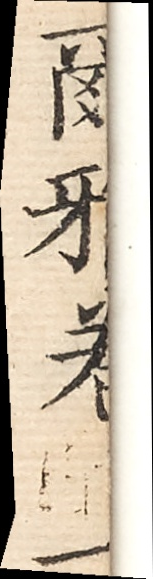爾雅卷一
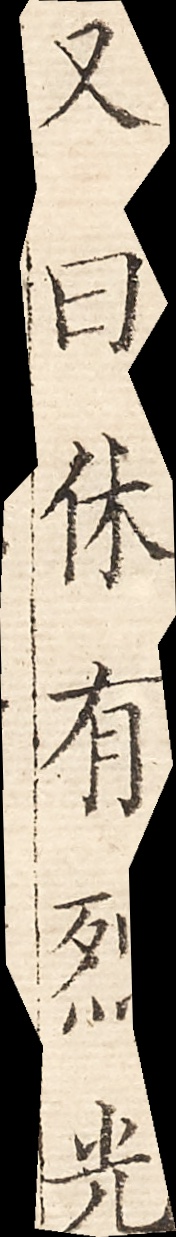又曰休有烈光
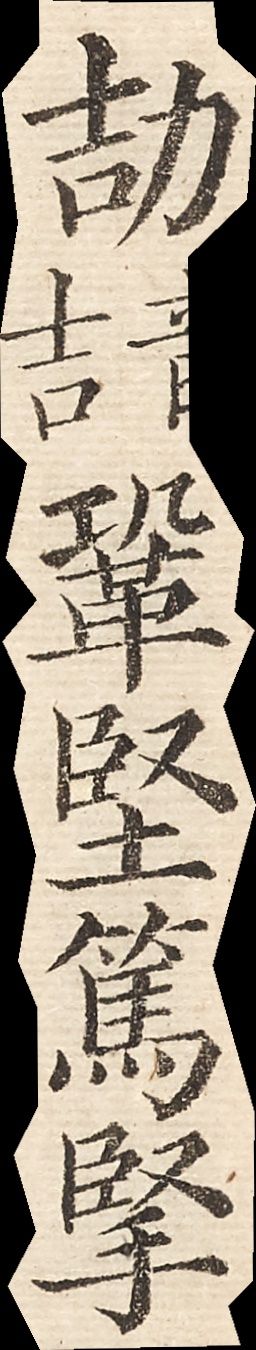劼鞏堅篤掔
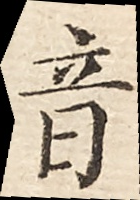音
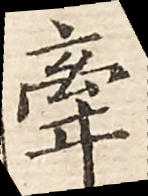牽
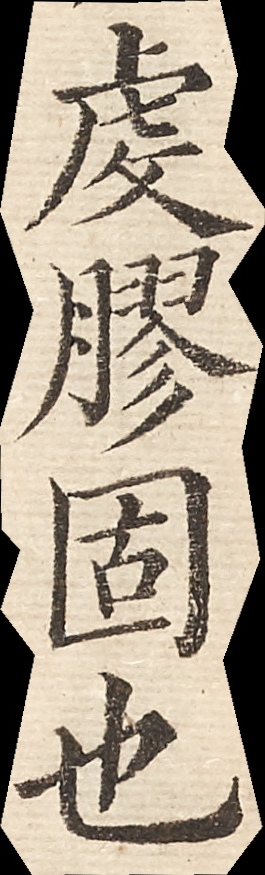虔膠固也
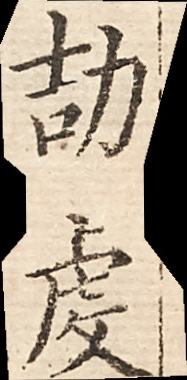劼虔
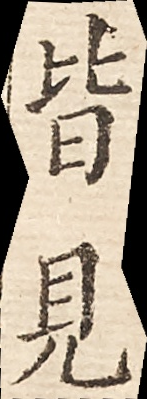皆見
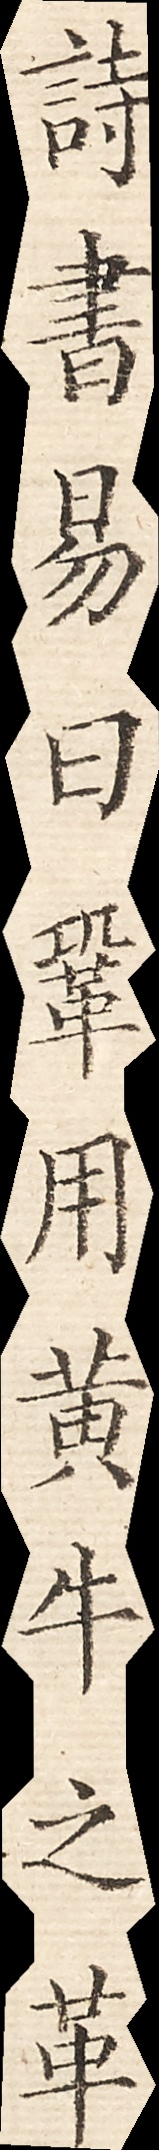詩書易曰鞏用黃牛之革
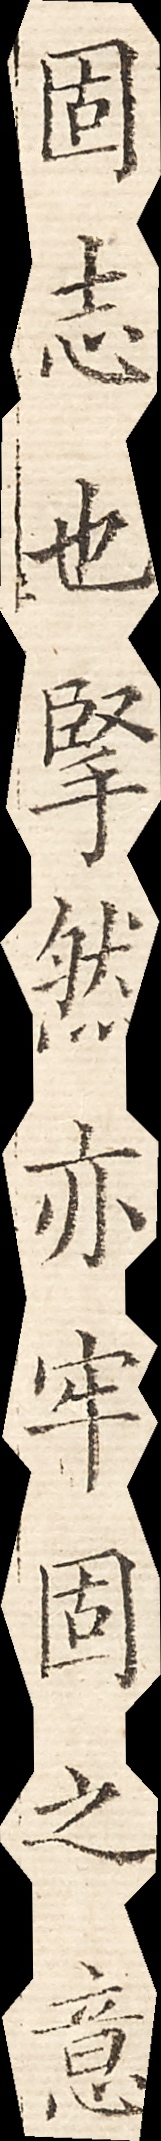固志也掔然亦牢固之意
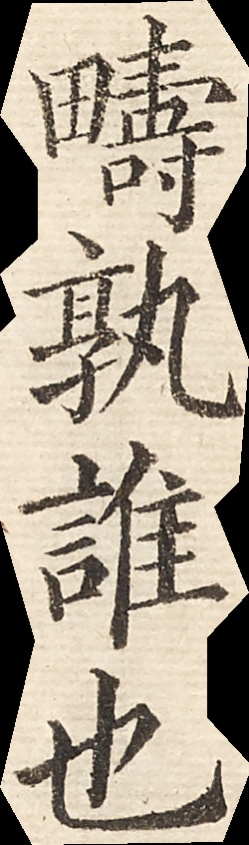疇孰誰也
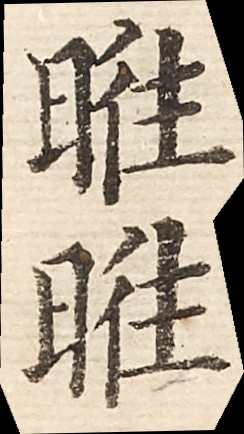甠甠
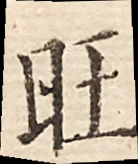旺
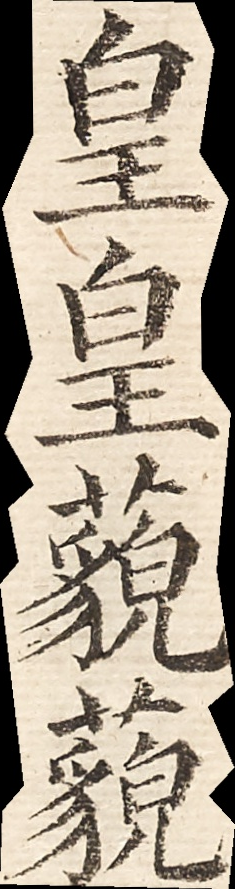皇皇藐藐
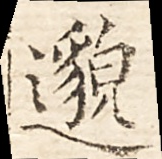邈
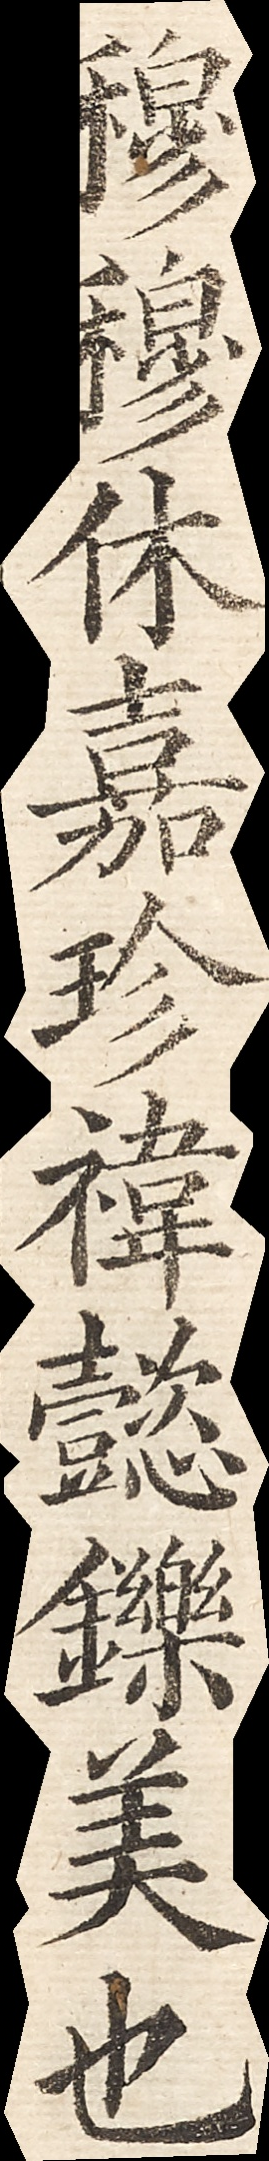穆穆休嘉珍褘懿鑠美也
